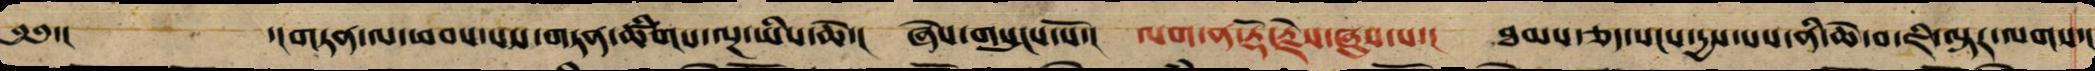༄༅་། ་།གཏན་ལ་ཕབ་པས་གཏན་ཚིགས་ལྔ་ཡིས་ཆེ་། ཞེས་གསུངས་སོ་། ལག་ན་རྡོ་རྗེས་ཡང་ཞུས་པ་། ཐམས་ཅད་སངས་དྱས་པས་ནི་ཆེ་བ་ཇི་ལྟར་ལགས་།
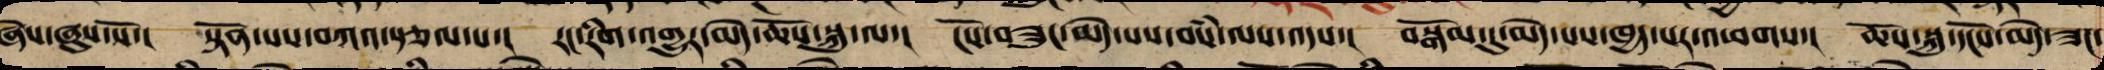ཞེས་ཞུས་སོ་། སྟོན་པས་བཀའ་སྩལ་པ་། རང་རིག་འགྱུར་མེད་ཆོས་སྐུ་ལ་། ངོས་གཟུང་མེད་པས་བསཾ་ལས་འདས་། བསྒོམ་དུ་མེད་པས་ཁྱད་པར་འཕགས་། ཆོས་སྐུ་དངོས་མེད་ཟང་
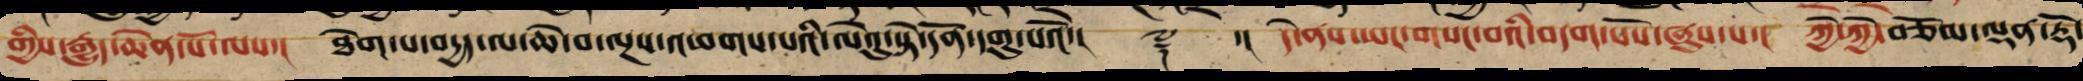གྱིས་རྒྱུད་ཆེན་པོ་ལས་། ཐེག་པ་བདྱད་ལས་ཆེ་བ་ལྔས་འཕགས་པའི་ལེའུ་སྟེ་དོན་དགུ་པའོ་།། ༈ ་།། དེ་ནས་ཡང་གསང་བའི་བདག་པོས་ཞུས་པ་། ཀྱེ་ཀྱེ་བཅོམ་ལྡན་རྡོ་
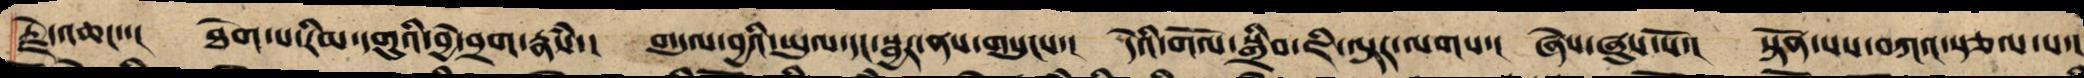རྗེ་འཆང་་། ཐེག་པ་རིམ་དགུའི་བྱེ་བྲག་རྣཾས་། གདུལ་བྱའི་ཡུལ་དང་སྦྱར་ནས་གསུངས་། དེའི་གོལ་སྒྲིབ་ཇི་ལྟར་ལགས་། ཞེས་ཞུས་སོ་། སྟོན་པས་བཀའ་སྩལ་པ་།
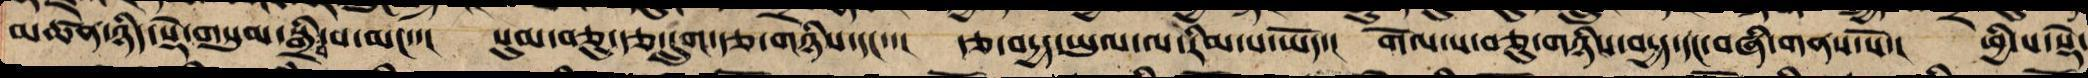མཚན་ཉིད་སྡེ་གསུམ་སྒྲིབ་པ་མང་་། སུམ་ཅུ་རྩ་དྲུག་རྩ་གཉིས་དང་་། རྩ་བདྱད་ཡུལ་ལ་རིམ་པ་ཡོད་། གོལ་ས་བཅུ་གཉིས་བདྱད་དང་བཞི་གནས་སོ་། ཕྱི་པ་སྡེ་
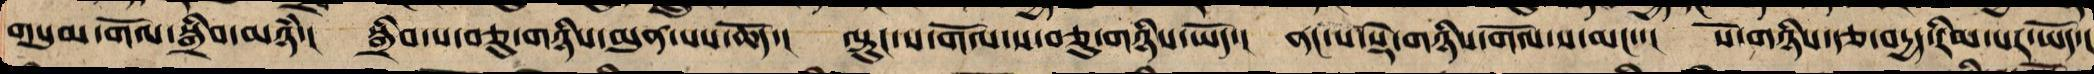གསུམ་གོལ་སྒྲིབ་མཉཾ་། སྒྲིབ་པ་བཅུ་གཉིས་མུན་པས་ཆོད་། ལྟུང་ས་གོལ་ས་བཅུ་གཉིས་ཡོད་། ནང་པ་སྡེ་གཉིས་གོལ་ས་མང་་། སོ་གཉིས་རྩ་བདྱད་རིམ་པར་ཡོད་།
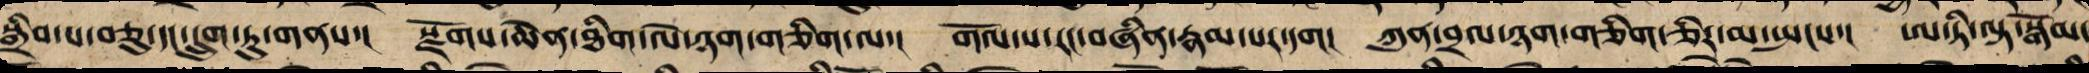སྒྲིབ་པ་བཅུ་དང་དྲུག་ཏུ་གནས་། སྫོགས་ཆེན་ཐིག་ལེ་ཉག་གཅིག་ལ་། གོལ་ས་རང་བཞིན་རྣམ་པར་དག། ཀུན་བྲལ་ཉག་གཅིག་སྤྱིར་མ་སྤངས་། ཨ་ཏིའི་ལྟ་སྒོམ་
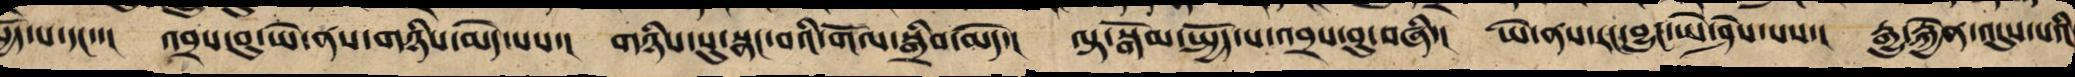སྤྱོད་པ་དང་་། འབྲས་བུ་ཡེ་ནས་གཉིས་མེད་པས་། གཉིས་སུ་སྣང་བའི་གོལ་སྒྲིབ་མེད་། ལྟ་སྒོམ་སྤྱོད་པ་འབྲས་བུ་བཞི་། ཡེ་ནས་རང་བྱུང་ཡེ་ཤེས་པས་། རྒྱུ་རྐྱེན་འདུས་པའི
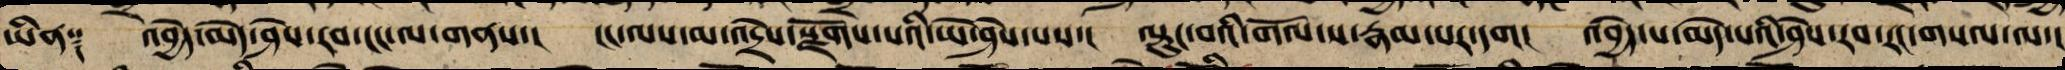ཡིན༑ འབྱེད་མེད་ཤེས་རབ་ངང་ལ་གནས་། ངང་ལས་མ་འདྲེས་སྫོགས་པའི་ཡེ་ཤེས་པས་། ལྟུང་བའི་གོལ་ས་རྣམ་པར་དག། འབྱེད་པ་མེད་པའི་ཤེས་རབ་རང་གསལ་ལ་།
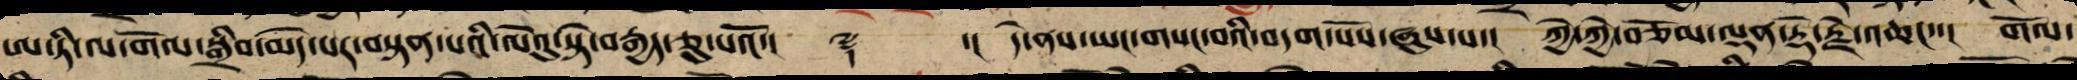ཨ་ཏི་ལ་གོལ་སྒྲིབ་མེད་པར་བསྟན་པའི་ལེའུ་སྟེ་བརྒྱད་ཅུ་པའོ་།། ༈ ་།། དེ་ནས་ཡང་གསང་བའི་བདག་པོས་ཞུས་པ་། ཀྱེ་ཀྱེ་བཅོམ་ལྡན་རྡོ་རྗེ་འཆང་་། གོལ་
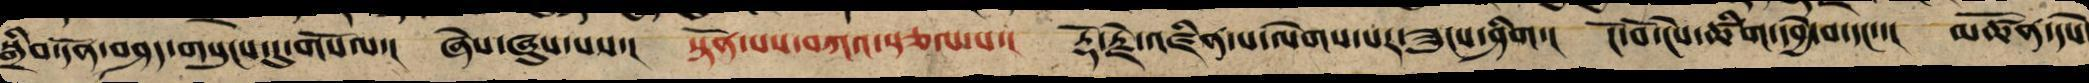སྒྲིབ་དོན་བཤད་གསུངས་དུ་གསོལ་། ཞེས་ཞུས་པས་། སྟོན་པས་བཀའ་སྩལ་པ་། རྡོ་རྗེ་འཛིན་པ་ལེགས་པར་ཟུངས་ཤིག། ངོ་བོ་ངེས་ཚིག་དབྱེ་བ་དང་་། མཚོན་དཔེ
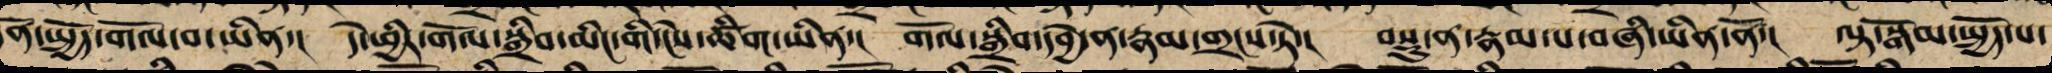དོན་སྤྱོད་གོལ་བ་ཡིན་། དེ་ཕྱིར་གོལ་སྒྲིབ་མིང་གི་ངེས་ཚིག་ཡིན་། གོལ་སྒྲིབ་དབྱེ་ན་རྣམ་གྲངས་ཏེ་། བསྡུ་ན་རྣམ་པ་བཞི་ཡིན་ནོ་། ལྟ་སྒོམ་སྤྱོད་པ་
